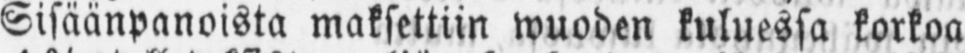Sisäänpanoista maksettiin wuoden kuluessa korkoa
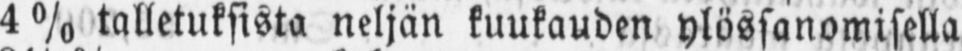4% talletuksista neljän kuukauden ylössanomisella
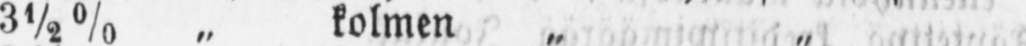3½% „ kolmen „ „
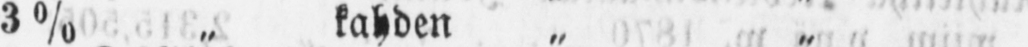3% „ kahden „ „
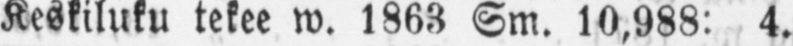Keskiluku tekee w. 1863 Sm. 10,988: 4.
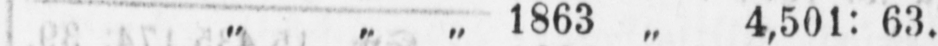„ „ „ 1863 „ 4,501: 63.
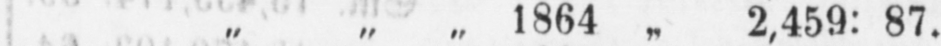„ „ „ 1864 „ 2,459: 87.
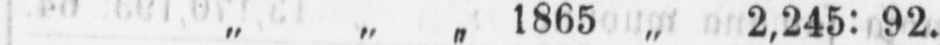„ „ „ l865 „ 2,245: 92.
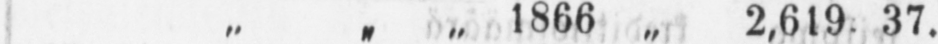„ „ „ 1866 „ 2,6l9. 37.
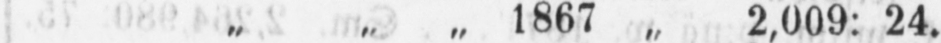„ „ „ 1867 „ 2,009: 24.
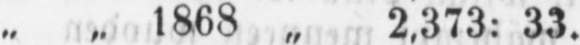„ „ „ 1868 „ 2,373: 33.
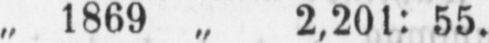„ „ „ 1869 „ 2,201: 55.
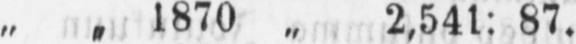„ „ „ 1870 „ 2,54l: 87.
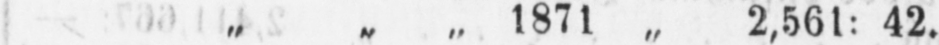„ „ „ 1871 „ 2,561: 42.
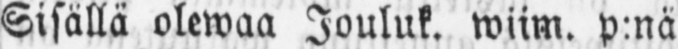Sisällä olewaa Jouluk. wiim. p:nä
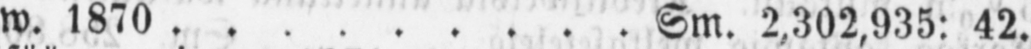w. 1870 Sm. 2,302,935: 42.
